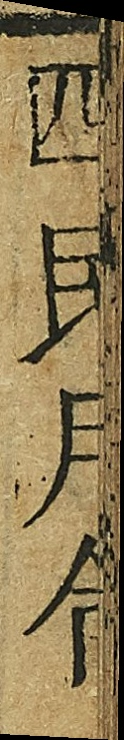四民月令
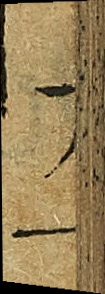十一
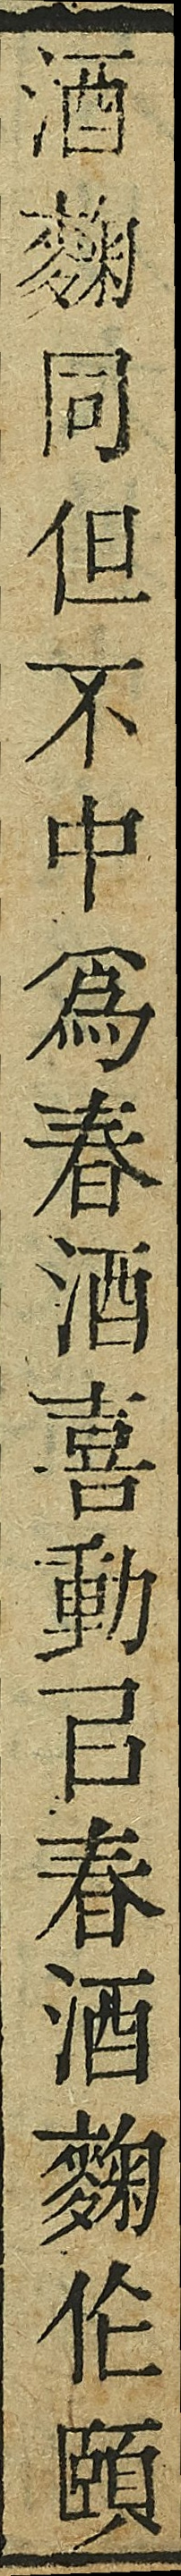酒麴同但不中爲春酒喜動已春酒麴伦頤
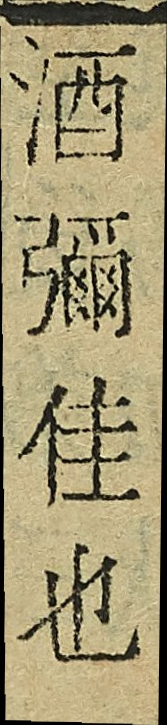酒彌佳也
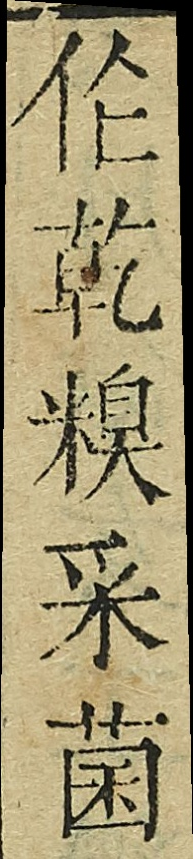伦乾糗采菌
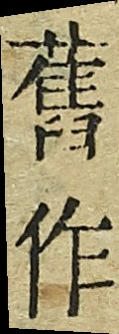舊作
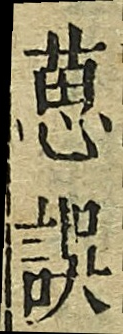蔥誤
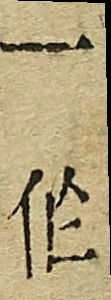一伦
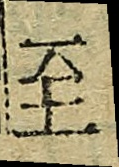至
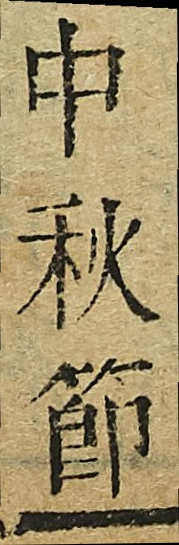中秋節
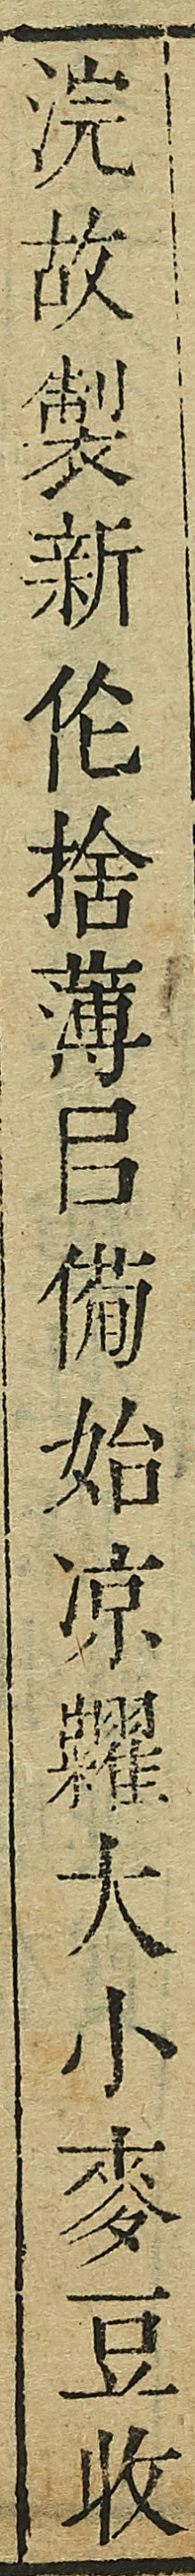浣故製新伦捨薄呂僃始凉耀大小麥豆收
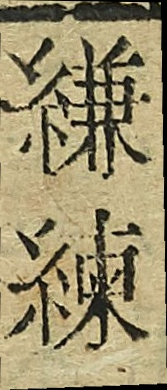縑練
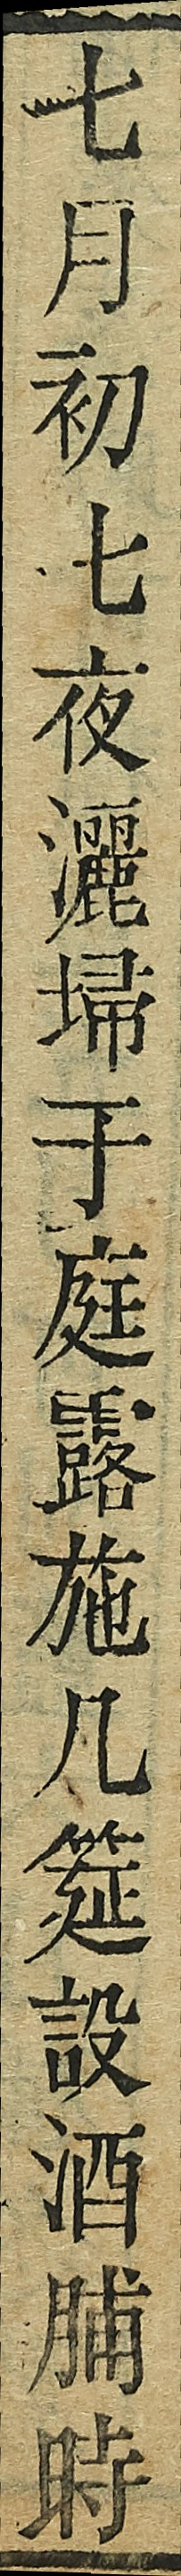七月初七夜灑埽于庭露施几筵設酒脯時
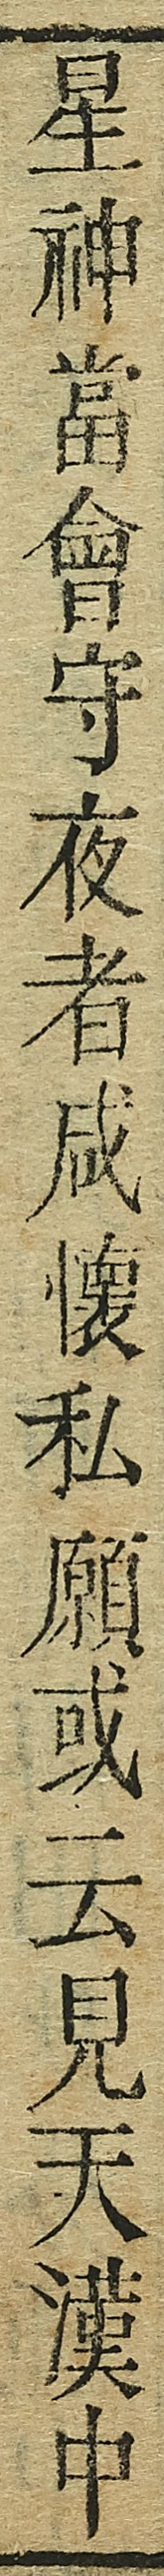星神當會守夜者咸懷私願或云見天漢中
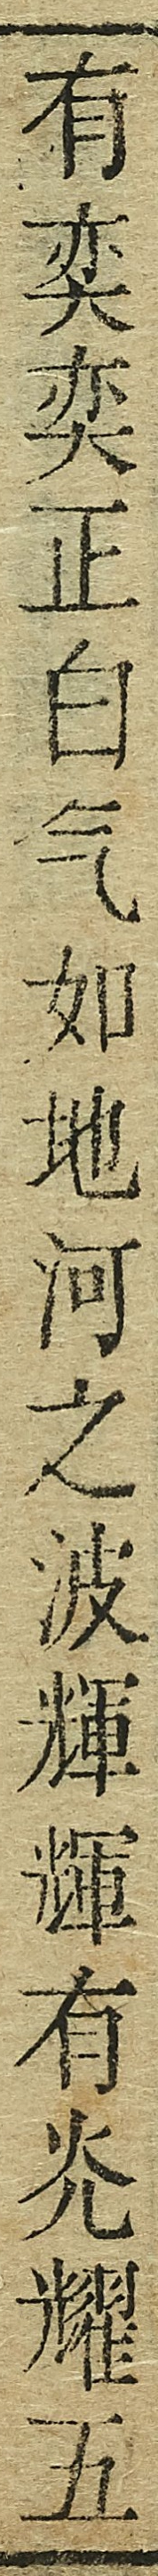有奕奕正白气如地河之波輝煇有灮耀五
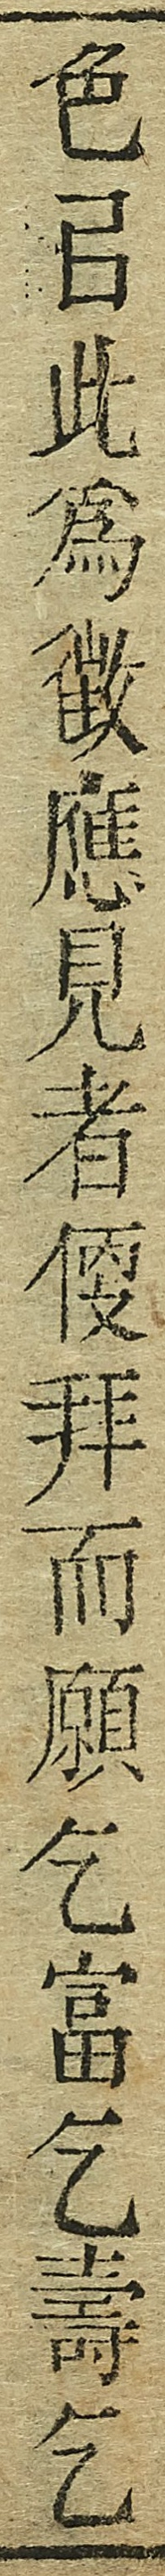色呂此爲徴應見者偃?拜而願乞富乞壽乞
